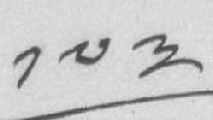༡༧༣
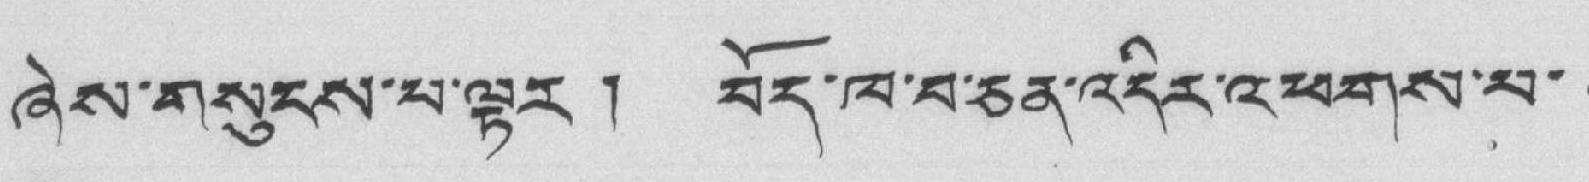ཞེས་གསུངས་བ་ལྟར ། བོད་ཁ་བ་ཅན་འདིར་འཕགས་པ་
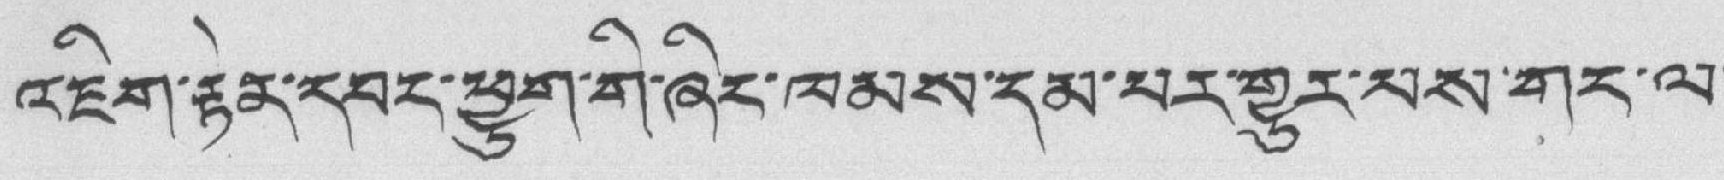འཇིག་རྟེན་དབང་ཕྱུག་ག་ཞིེང་ཁམས་དམ་པར་གྱུར་པས་གང་ལ་
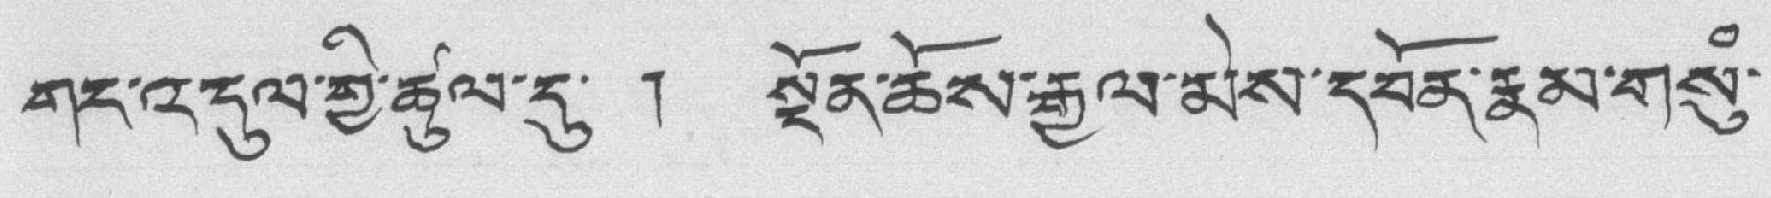གང་འདུལ་གྱི་ཚུལ་དུ་ ། སྔོན་ཆོས་རྒྱལ་མེས་དབོན་རྣམ་གསུཾ་
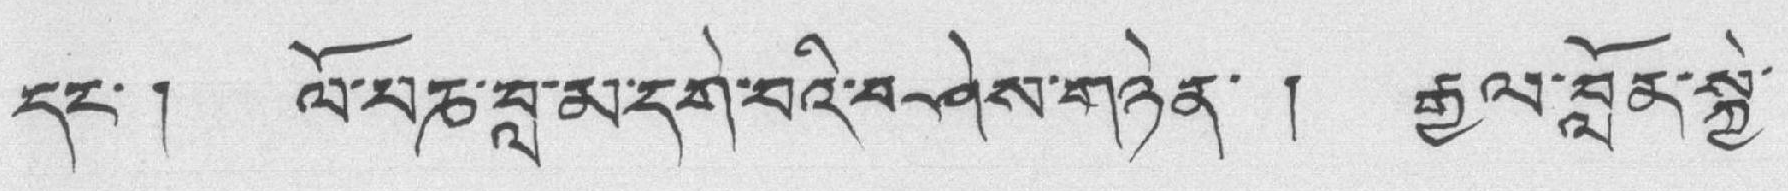དང་། ལོ་པཎ་བླ་མ་དགེ་བའི་བ་ཤེས་གཉེན་ ། རྒྱལ་བློན་སྐྱེ་
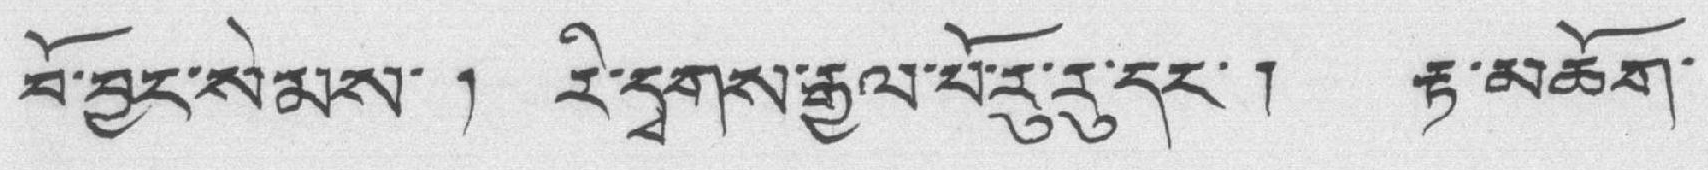བོ་བྱང་སེམས་ ། རི་དྭགས་རྒྱལ་པོ་རུ་རུ་དང་། རྟ་མཆོག་
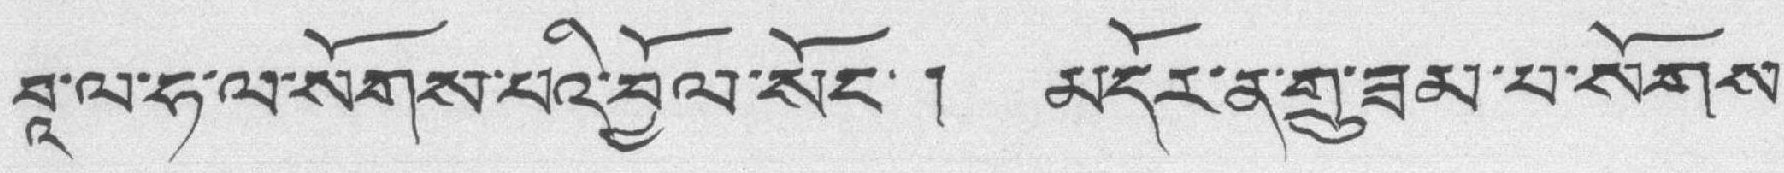བཱ་ལ་ཧ་ལ་སོགས་པའི་བྱོལ་སོང་། མདོར་ན་གྲུ་ཟམ་པ་སོགས་
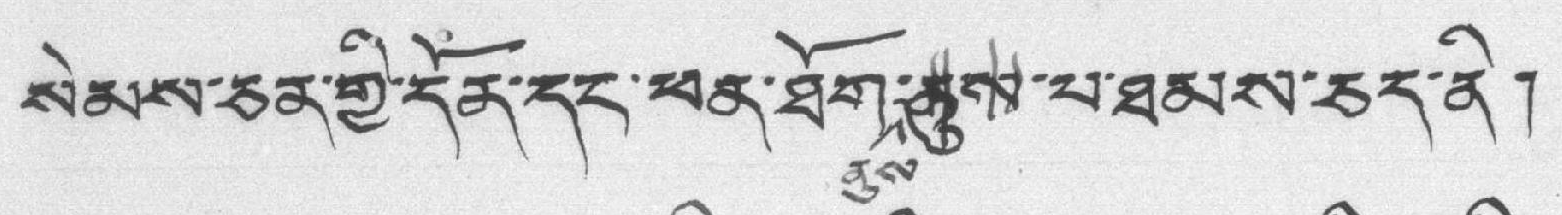སེམས་ཅན་གྱི་དོན་དང་ཕན་ཐོག་ནུསནུས་པ་ཐམས་ཅར་ནི།
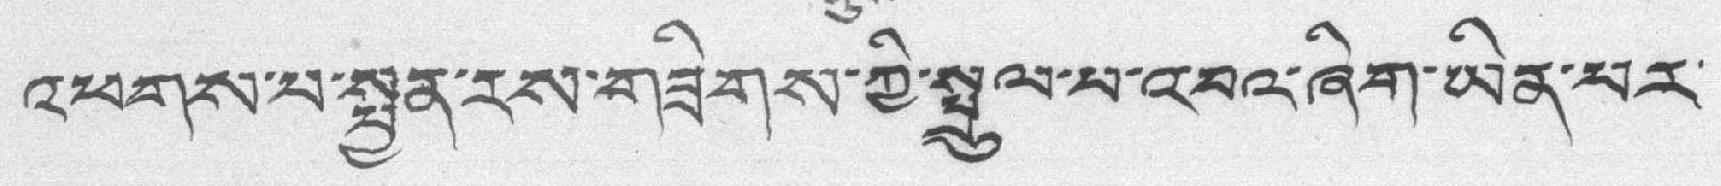འཕགས་པ་སྤྱན་རས་གཟིགས་ཀྱི་སྤྲུལ་པ་འབའ་ཞིག་ཡིན་པར་
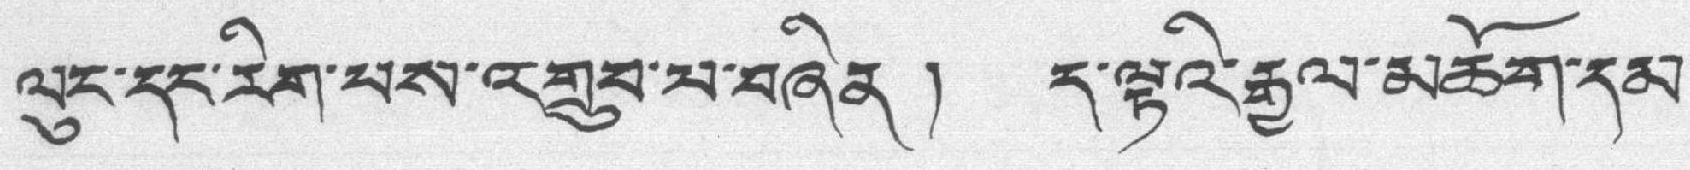ལུང་དང་རིག་པས་འགྲུབ་པ་བཞིན། ད་ལྟའི་རྒྱལ་མཆོག་དམ་
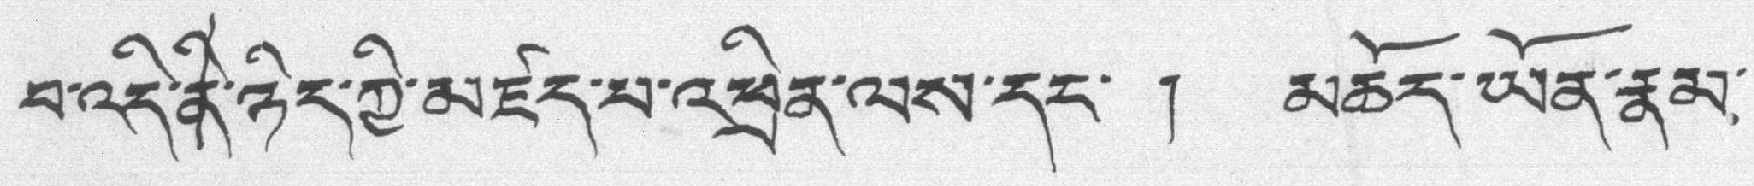བ་འདི་ནི་ཉིད་གྱི་མཛད་པ་འཕྲིན་ལས་དང་ ། མཆོར་ཡོན་རྣམ་
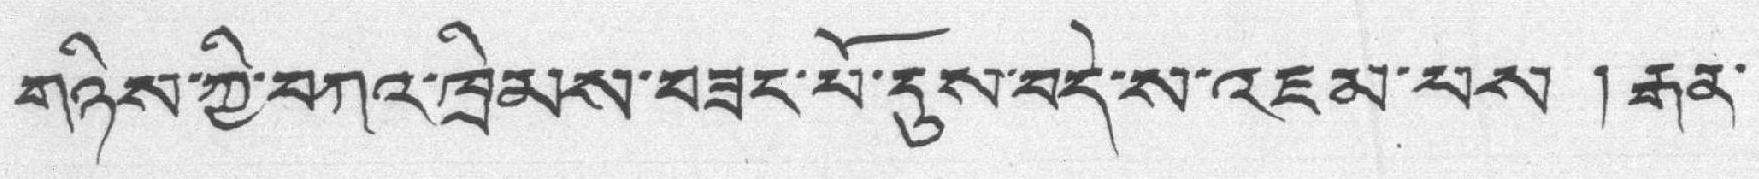གཉིས་ཀྱི་བཀའ་ཁྲིམས་བཟང་པོ་དུས་བདེ་ས་འཇམ་པས ། རྒན་
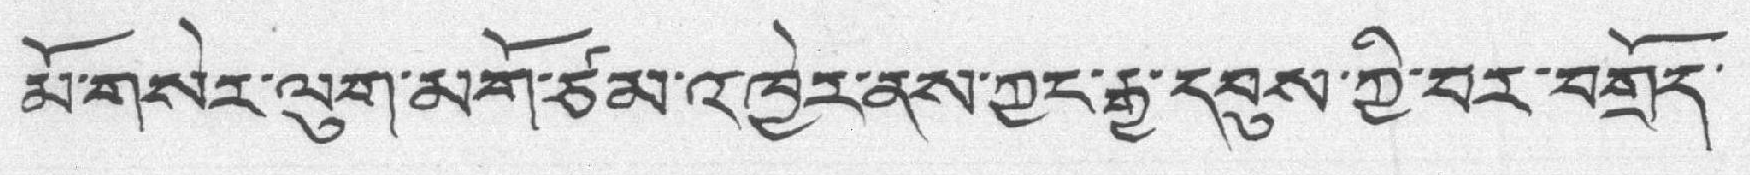མོ་གསར་ལུག་མགོ་ཙམ་འཁྱེར་ནས་ཀྱང་རྒྱ་དབུས་ཀྱི་བར་བགྲོད་
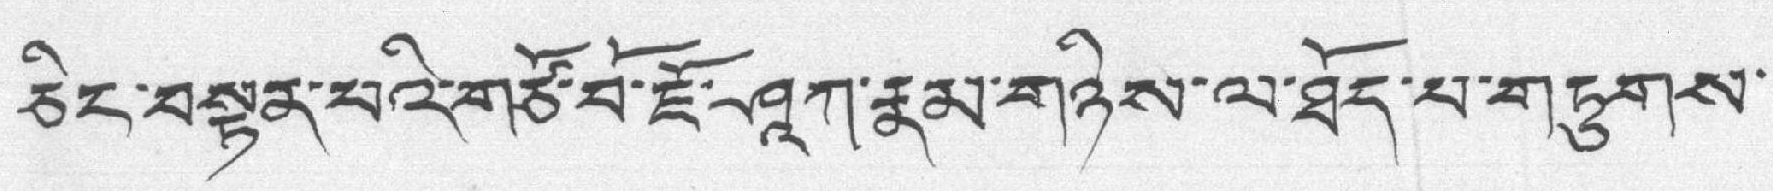ཅིང་བསྟན་པའི་གཙོ་བོ་ཇོ་ཤཱཀ་རྣམ་གཉིས་ལ་ཐོད་པ་གཏུགས་
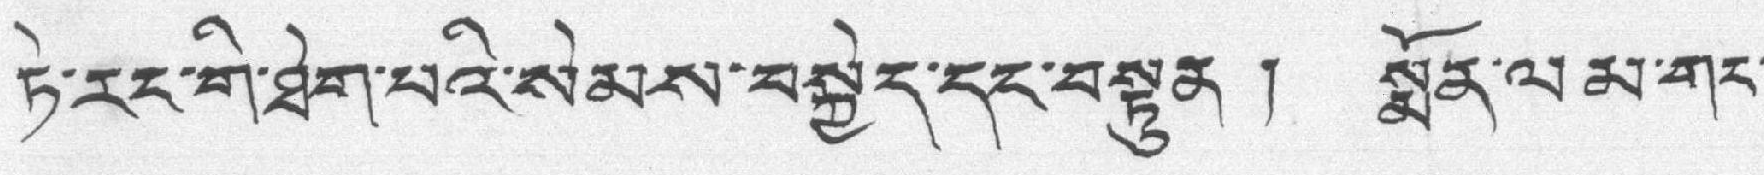ཏེ་རང་གི་ཐེག་པའི་སེམས་བསྐྱེད་དང་བསྟུན ། སྨོན་ལམ་གང་
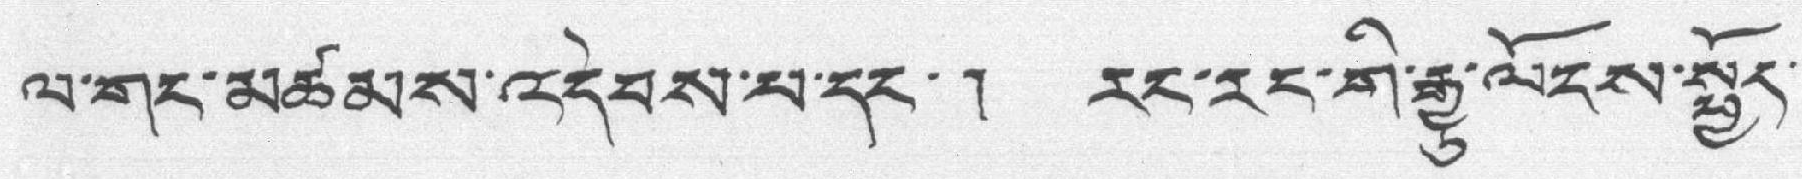ལ་གང་མཚམས་འདེབས་པ་དང་། རང་རང་གི་རྒྱུ་ལོངས་སྤྱོད་
